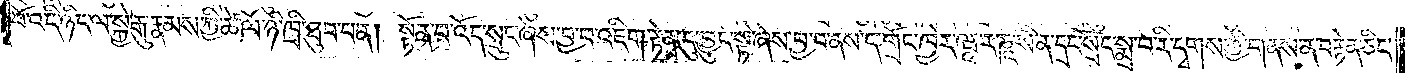པོ་འདི་ཉིད་ལ་སྐྱེ་རྒུ་རྣམས་ཀྱི་ཚེ་ལོ་ཉི་ཁྲི་ཐུབ་པ་ན། སྟོན་པ་འོད་སྲུང་ཞེས་བྱ་བ་འཇིག་རྟེན་དུ་བྱུང་སྟེ་ཞེས་བྱ་བ་ནས་དེ་གྲོང་ཁྱེར་ཝཱ་ར་ཎཱ་སི་ན་དྲང་སྲོང་སྨྲ་བ་རི་དྭགས་ཀྱི་གནས་ན་བརྟེན་ཅིང་
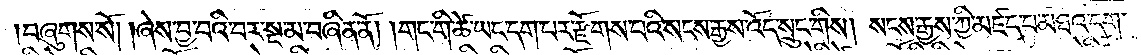བཞུགས་སོ། །ཞེས་བྱ་བའི་བར་སྔ་མ་བཞིན་ནོ། །གང་གི་ཚེ་ཡང་དག་པར་རྫོགས་པའི་སངས་རྒྱས་འོད་སྲུང་གིས། སངས་རྒྱས་ཀྱི་མཛད་པ་མཐའ་དག་
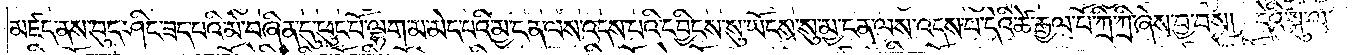མཛད་ནས་བུད་ཤིང་ཟད་པའི་མེ་བཞིན་དུ་ཕུང་པོ་ལྷག་མ་མེད་པའི་མྱ་ངན་ལས་འདས་པའི་དབྱིངས་སུ་ཡོངས་སུ་མྱ་ངན་ལས་འདས་པ་དེའི་ཚེ་རྒྱལ་པོ་ཀྲི་ཀྲི་ཞེས་བྱ་བས། དེའི་སྐུ་ལ་
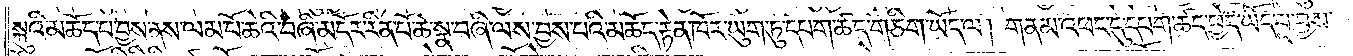སྐུའི་མཆོད་པ་བྱས་ནས་ལམ་པོ་ཆེའི་བཞི་མདོར་རིན་པོ་ཆེ་སྣ་བཞི་ལས་བྱས་པའི་མཆོད་རྟེན་ཁོར་ཡུག་ཏུ་དཔག་ཚད་གཅིག་ཡོད་ལ། གནམ་འཕང་དུ་དཔག་ཚད་ཕྱེད་ཡོད་པ་བྱས་
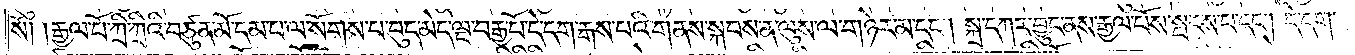སོ། །རྒྱལ་པོ་ཀྲི་ཀྲིའི་བཙུན་མོ་དམ་པ་ལ་སོགས་པ་བུད་མེད་ལྔ་བརྒྱ་པོ་དེ་དག་རྒས་པའི་གནས་སྐབས་ན་ལུས་ལ་གཉེར་མ་དང༌། སྐྲ་དཀར་བྱུང་ནས་རྒྱལ་པོས་སྤངས་པ་དང༌། དེ་དག་
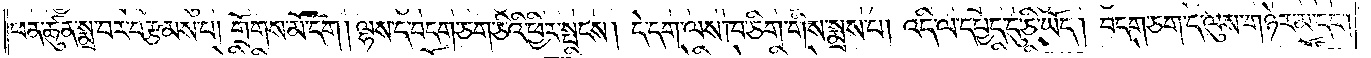ཕན་ཚུན་སྨྲ་བར་བརྩམས་པ། གྲོགས་མོ་དག །ལྷས་ད་བདག་ཅག་ཅིའི་ཕྱིར་སྤངས། དེ་དག་ལས་ཁ་ཅིག་གིས་སྨྲས་པ། འདི་ལ་དཔྱད་དུ་ཅི་ཡོད། བདག་ཅག་ད་ལུས་གཉེར་མ་དང༌།
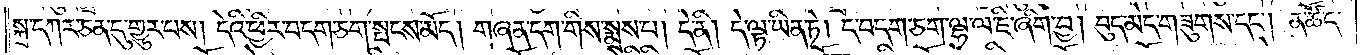སྐྲ་དཀར་ཅན་དུ་གྱུར་པས། དེའི་ཕྱིར་བདག་ཅག་སྤངས་མོད། གཞན་དག་གིས་སྨྲས་པ། དེ་ནི། དེ་ལྟ་ཡིན་ཏེ། ད་བདག་ཅག་ལྷ་ལ་ཇི་ཞིག་བྱ། བུད་མེད་གཟུགས་དང༌། ན་ཚོད་
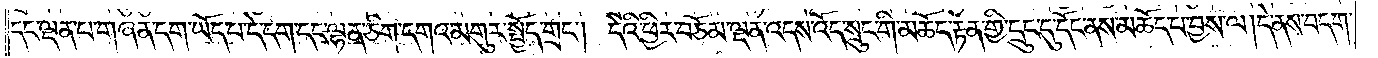དང་ལྡན་པ་གཞན་དག་ཡོད་པ་དེ་དག་དང་ལྷན་ཅིག་དགའ་མགུར་སྤྱོད་གྲང༌། དེའི་ཕྱིར་བཅོམ་ལྡན་འདས་འོད་སྲུང་གི་མཆོད་རྟེན་གྱི་དྲུང་དུ་དོང་ནས་མཆོད་པ་བྱས་ལ། དེ་ནས་བདག་
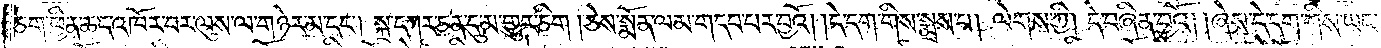ཅག་ཕྱིན་ཆད་འཁོར་བར་ལུས་ལ་གཉེར་མ་དང༌། སྐྲ་དཀར་ཅན་དུ་མ་གྱུར་ཅིག །ཅེས་སྨོན་ལམ་གདབ་པར་བྱའོ། །དེ་དག་གིས་སྨྲས་པ། ལེགས་ཀྱི། དེ་བཞིན་བྱའོ། །ཞེས་དེ་དག་གིས་ཡང་
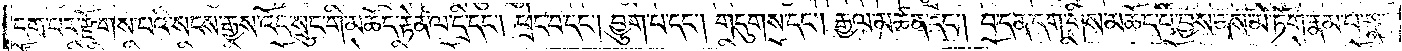དག་པར་རྫོགས་པའི་སངས་རྒྱས་འོད་སྲུང་གི་མཆོད་རྟེན་ལ་དྲི་དང༌། ཕྲེང་བ་དང༌། བྱུག་པ་དང༌། གདུགས་དང༌། རྒྱལ་མཚན་དང༌། བ་དན་དག་གིས་མཆོད་པ་བྱས་ནས་མེ་ཏོག་རྣམ་པ་སྣ་
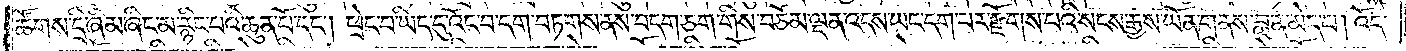ཚོགས་དྲི་ཞིམ་ཞིང་མ་རྙིང་པའི་ཆུན་པོ་དང༌། ཕྲེང་བ་ཡིད་དུ་འོང་བ་དག་བཏགས་ནས་བདག་ཅག་གིས་བཅོམ་ལྡན་འདས་ཡང་དག་པར་རྫོགས་པའི་སངས་རྒྱས་ཡོན་གནས་བླ་ན་མེད་པ། འོད་
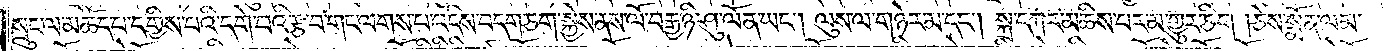སྲུང་ལ་མཆོད་པ་དགྱིས་པའི་དགེ་བའི་རྩ་བ་གང་ལགས་པ་འདིས་བདག་ཅག་སྐྱེས་ནས་ལོ་བརྒྱ་ཉི་ཤུ་ལོན་ཡང༌། ལུས་ལ་གཉེར་མ་དང༌། སྐྲ་དཀར་མཆིས་པར་མ་གྱུར་ཅིག །ཅེས་སྨོན་ལམ་
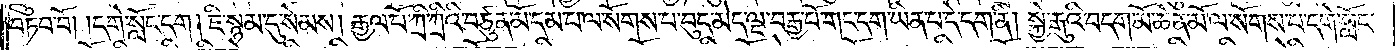བཏབ་བོ། །དགེ་སློང་དག །ཇི་སྙམ་དུ་སེམས། རྒྱལ་པོ་ཀྲི་ཀྲིའི་བཙུན་མོ་དམ་པ་ལ་སོགས་པ་བུད་མེད་ལྔ་བརྒྱ་པོ་གང་དག་ཡིན་པ་དེ་དག་ནི། སྐྱེ་རྒུའི་བདག་མོ་ཆེན་མོ་ལ་སོགས་པ་དགེ་སློང་
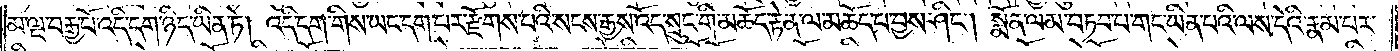མ་ལྔ་བརྒྱ་པོ་འདི་དག་ཉིད་ཡིན་ཏེ། འདི་དག་གིས་ཡང་དག་པར་རྫོགས་པའི་སངས་རྒྱས་འོད་སྲུང་གི་མཆོད་རྟེན་ལ་མཆོད་པ་བྱས་ཤིང༌། སྨོན་ལམ་བཏབ་པ་གང་ཡིན་པའི་ལས་དེའི་རྣམ་པར་
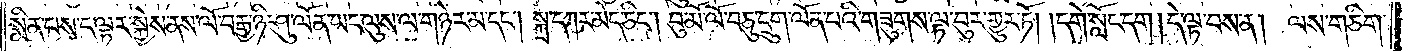སྨིན་བས་ད་ལྟར་སྐྱེས་ནས་ལོ་བརྒྱ་ཉི་ཤུ་ལོན་ཡང་ལུས་ལ་གཉེར་མ་དང༌། སྐྲ་དཀར་མེད་ཅིང༌། བུ་མོ་ལོ་བཅུ་དྲུག་ལོན་པའི་གཟུགས་ལྟ་བུར་གྱུར་ཏོ། །དགེ་སློང་དག །དེ་ལྟ་བས་ན། ལས་གཅིག་
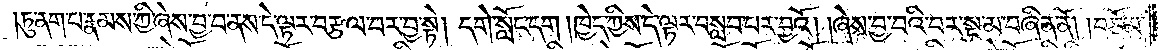ཏུ་ནག་པ་རྣམས་ཀྱི་ཞེས་བྱ་བ་ནས་དེ་ལྟར་བརྩལ་བར་བྱ་སྟེ། དགེ་སློང་དག །ཁྱེད་ཀྱིས་དེ་ལྟར་བསླབ་པར་བྱའོ། །ཞེས་བྱ་བའི་བར་སྔ་མ་བཞིན་ནོ། །བཅོམ་
